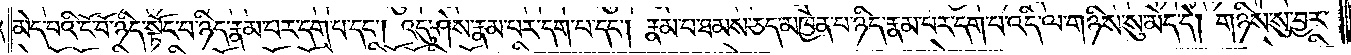མེད་པའི་ངོ་བོ་ཉིད་སྟོང་པ་ཉིད་རྣམ་པར་དག་པ་དང༌། འདུ་ཤེས་རྣམ་པར་དག་པ་དང༌། རྣམ་པ་ཐམས་ཅད་མཁྱེན་པ་ཉིད་རྣམ་པར་དག་པ་འདི་ལ་གཉིས་སུ་མེད་དེ། གཉིས་སུ་བྱར་
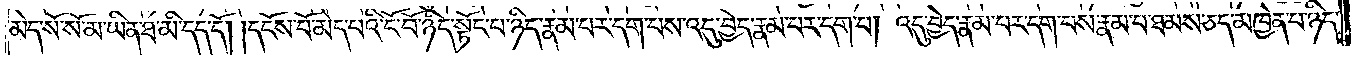མེད་སོ་སོ་མ་ཡིན་ཐ་མི་དད་དོ། །དངོས་པོ་མེད་པའི་ངོ་བོ་ཉིད་སྟོང་པ་ཉིད་རྣམ་པར་དག་པས་འདུ་བྱེད་རྣམ་པར་དག་པ། འདུ་བྱེད་རྣམ་པར་དག་པས་རྣམ་པ་ཐམས་ཅད་མཁྱེན་པ་ཉིད་
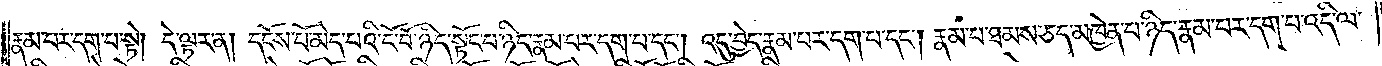རྣམ་པར་དག་པ་སྟེ། དེ་ལྟར་ན། དངོས་པོ་མེད་པའི་ངོ་བོ་ཉིད་སྟོང་པ་ཉིད་རྣམ་པར་དག་པ་དང༌། འདུ་བྱེད་རྣམ་པར་དག་པ་དང༌། རྣམ་པ་ཐམས་ཅད་མཁྱེན་པ་ཉིད་རྣམ་པར་དག་པ་འདི་ལ་
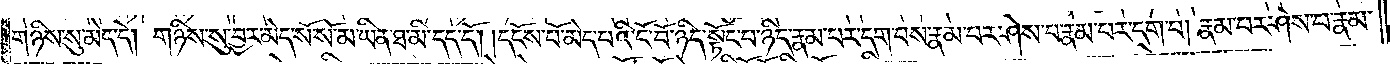གཉིས་སུ་མེད་དེ། གཉིས་སུ་བྱར་མེད་སོ་སོ་མ་ཡིན་ཐ་མི་དད་དོ། །དངོས་པོ་མེད་པའི་ངོ་བོ་ཉིད་སྟོང་པ་ཉིད་རྣམ་པར་དག་པས་རྣམ་པར་ཤེས་པ་རྣམ་པར་དག་པ། རྣམ་པར་ཤེས་པ་རྣམ་
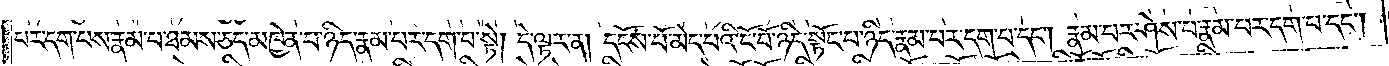པར་དག་པས་རྣམ་པ་ཐམས་ཅད་མཁྱེན་པ་ཉིད་རྣམ་པར་དག་པ་སྟེ། དེ་ལྟར་ན། དངོས་པོ་མེད་པའི་ངོ་བོ་ཉིད་སྟོང་པ་ཉིད་རྣམ་པར་དག་པ་དང༌། རྣམ་པར་ཤེས་པ་རྣམ་པར་དག་པ་དང༌།
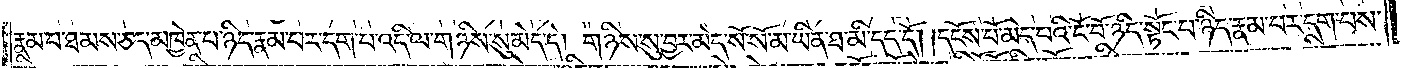རྣམ་པ་ཐམས་ཅད་མཁྱེན་པ་ཉིད་རྣམ་པར་དག་པ་འདི་ལ་གཉིས་སུ་མེད་དེ། གཉིས་སུ་བྱར་མེད་སོ་སོ་མ་ཡིན་ཐ་མི་དད་དོ། །དངོས་པོ་མེད་པའི་ངོ་བོ་ཉིད་སྟོང་པ་ཉིད་རྣམ་པར་དག་པས་
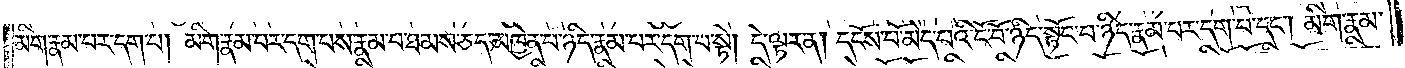མིག་རྣམ་པར་དག་པ། མིག་རྣམ་པར་དག་པས་རྣམ་པ་ཐམས་ཅད་མཁྱེན་པ་ཉིད་རྣམ་པར་དག་པ་སྟེ། དེ་ལྟར་ན། དངོས་པོ་མེད་པའི་ངོ་བོ་ཉིད་སྟོང་པ་ཉིད་རྣམ་པར་དག་པ་དང༌། མིག་རྣམ་
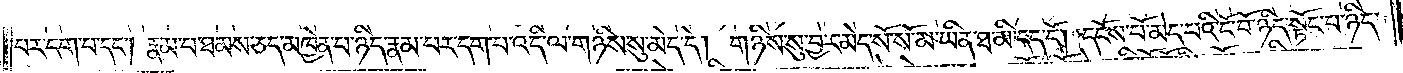པར་དག་པ་དང༌། རྣམ་པ་ཐམས་ཅད་མཁྱེན་པ་ཉིད་རྣམ་པར་དག་པ་འདི་ལ་གཉིས་སུ་མེད་དེ། གཉིས་སུ་བྱར་མེད་སོ་སོ་མ་ཡིན་ཐ་མི་དད་དོ། །དངོས་པོ་མེད་པའི་ངོ་བོ་ཉིད་སྟོང་པ་ཉིད་
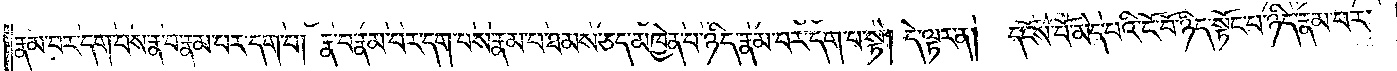རྣམ་པར་དག་པས་རྣ་བ་རྣམ་པར་དག་པ། རྣ་བ་རྣམ་པར་དག་པས་རྣམ་པ་ཐམས་ཅད་མཁྱེན་པ་ཉིད་རྣམ་པར་དག་པ་སྟེ། དེ་ལྟར་ན། དངོས་པོ་མེད་པའི་ངོ་བོ་ཉིད་སྟོང་པ་ཉིད་རྣམ་པར་
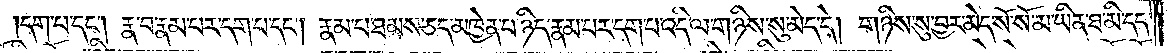དག་པ་དང༌། རྣ་བ་རྣམ་པར་དག་པ་དང༌། རྣམ་པ་ཐམས་ཅད་མཁྱེན་པ་ཉིད་རྣམ་པར་དག་པ་འདི་ལ་གཉིས་སུ་མེད་དེ། གཉིས་སུ་བྱར་མེད་སོ་སོ་མ་ཡིན་ཐ་མི་དད་
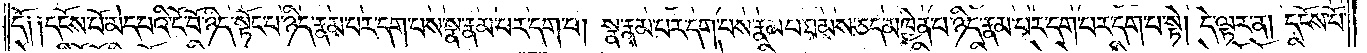དོ༑ ༑དངོས་པོ་མེད་པའི་ངོ་བོ་ཉིད་སྟོང་པ་ཉིད་རྣམ་པར་དག་པས་སྣ་རྣམ་པར་དག་པ། སྣ་རྣམ་པར་དག་པས་རྣམ་པ་ཐམས་ཅད་མཁྱེན་པ་ཉིད་རྣམ་པར་དག་པ་སྟེ། དེ་ལྟར་ན། དངོས་པོ་
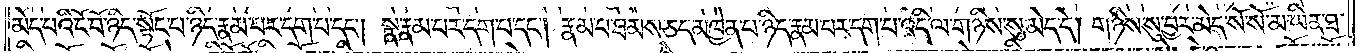མེད་པའི་ངོ་བོ་ཉིད་སྟོང་པ་ཉིད་རྣམ་པར་དག་པ་དང༌། སྣ་རྣམ་པར་དག་པ་དང༌། རྣམ་པ་ཐམས་ཅད་མཁྱེན་པ་ཉིད་རྣམ་པར་དག་པ་འདི་ལ་གཉིས་སུ་མེད་དེ། གཉིས་སུ་བྱར་མེད་སོ་སོ་མ་ཡིན་ཐ་
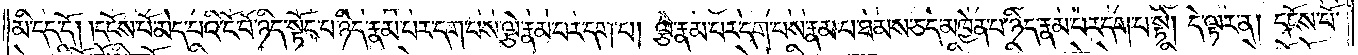མི་དད་དོ། །དངོས་པོ་མེད་པའི་ངོ་བོ་ཉིད་སྟོང་པ་ཉིད་རྣམ་པར་དག་པས་ལྕེ་རྣམ་པར་དག་པ། ལྕེ་རྣམ་པར་དག་པས་རྣམ་པ་ཐམས་ཅད་མཁྱེན་པ་ཉིད་རྣམ་པར་དག་པ་སྟེ། དེ་ལྟར་ན། དངོས་པོ་
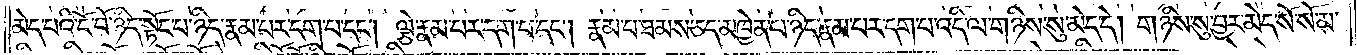མེད་པའི་ངོ་བོ་ཉིད་སྟོང་པ་ཉིད་རྣམ་པར་དག་པ་དང༌། ལྕེ་རྣམ་པར་དག་པ་དང༌། རྣམ་པ་ཐམས་མཁྱེན་པ་ཉིད་རྣམ་པར་དག་པ་འདི་ལ་གཉིས་སུ་མེད་དེ། གཉིས་སུ་བྱར་མེད་སོ་སོ་མ་
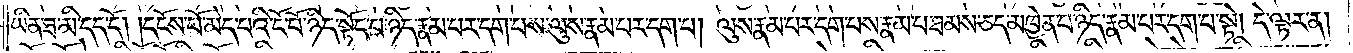ཡིན་ཐ་མི་དད་དོ། །དངོས་པོ་མེད་པའི་ངོ་བོ་ཉིད་སྟོང་པ་ཉིད་རྣམ་པར་དག་པས་ལུས་རྣམ་པར་དག་པ། ལུས་རྣམ་པར་དག་པས་རྣམ་པ་ཐམས་ཅད་མཁྱེན་པ་ཉིད་རྣམ་པར་དག་པ་སྟེ། དེ་ལྟར་ན།
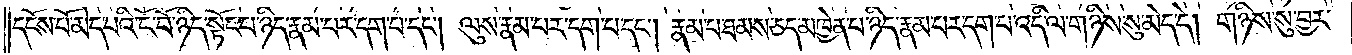དངོས་པོ་མེད་པའི་ངོ་བོ་ཉིད་སྟོང་པ་ཉིད་རྣམ་པར་དག་པ་དང༌། ལུས་རྣམ་པར་དག་པ་དང༌། རྣམ་པ་ཐམས་ཅད་མཁྱེན་པ་ཉིད་རྣམ་པར་དག་པ་འདི་ལ་གཉིས་སུ་མེད་དེ། གཉིས་སུ་བྱར་
